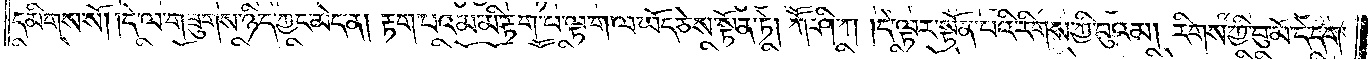དམིགས་སོ། །དེ་ལ་གཟུགས་ཉིད་ཀྱང་མེད་ན། རྟག་པའམ་མི་རྟག་པ་ལྟ་ག་ལ་ཡོད་ཅེས་སྟོན་ཏེ། ཀཽ་ཤི་ཀ། དེ་ལྟར་སྟོན་པའི་རིགས་ཀྱི་བུའམ། རིགས་ཀྱི་བུ་མོ་དེ་དག་
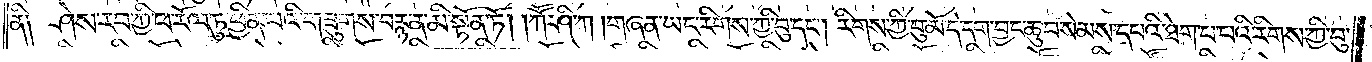ནི༑ ཤེས་རབ་ཀྱི་ཕ་རོལ་ཏུ་ཕྱིན་པའི་གཟུགས་བརྙན་མི་སྟོན་ཏོ། །ཀཽ་ཤི་ཀ། གཞན་ཡང་རིགས་ཀྱི་བུ་དང༌། རིགས་ཀྱི་བུ་མོ་དེ་དག་བྱང་ཆུབ་སེམས་དཔའི་ཐེག་པ་པའི་རིགས་ཀྱི་བུ་
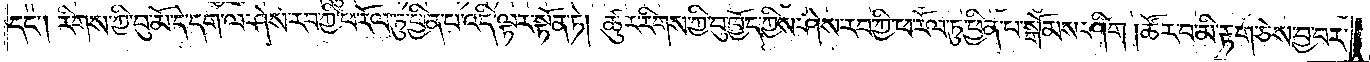དང༌། རིགས་ཀྱི་བུ་མོ་དེ་དག་ལ་ཤེས་རབ་ཀྱི་ཕ་རོལ་ཏུ་ཕྱིན་པ་འདི་ལྟར་སྟོན་ཏེ། ཚུར་རིགས་ཀྱི་བུ་ཁྱོད་ཀྱིས་ཤེས་རབ་ཀྱི་ཕ་རོལ་ཏུ་ཕྱིན་པ་སྒོམས་ཤིག། ཚོར་བ་མི་རྟག་ཅེས་བྱ་བར་
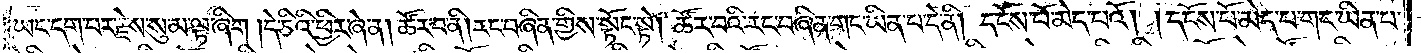ཡང་དག་པར་རྗེས་སུ་མ་ལྟ་ཞིག །དེ་ཅིའི་ཕྱིར་ཞེ་ན། ཚོར་བ་ནི། རང་བཞིན་གྱིས་སྟོང་སྟེ། ཚོར་བའི་རང་བཞིན་གང་ཡིན་པ་དེ་ནི། དངོས་པོ་མེད་པའོ། །དངོས་པོ་མེད་པ་གང་ཡིན་པ་
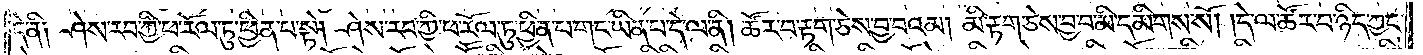དེ་ནི༑ ཤེས་རབ་ཀྱི་ཕ་རོལ་ཏུ་ཕྱིན་པ་སྟེ། ཤེས་རབ་ཀྱི་ཕ་རོལ་ཏུ་ཕྱིན་པ་གང་ཡིན་པ་དེ་ལ་ནི། ཚོར་བ་རྟག་ཅེས་བྱ་བའམ། མི་རྟག་ཅེས་བྱ་བ་མི་དམིགས་སོ། །དེ་ལ་ཚོར་བ་ཉིད་ཀྱང་
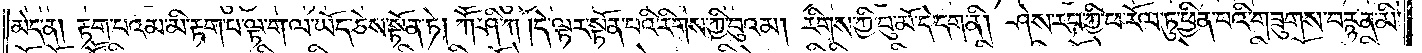མེད་ན། རྟག་པའམ་མི་རྟག་པ་ལྟ་ག་ལ་ཡོད་ཅེས་སྟོན་ཏེ། ཀཽ་ཤི་ཀ །དེ་ལྟར་སྟོན་པའི་རིགས་ཀྱི་བུའམ། རིགས་ཀྱི་བུ་མོ་དེ་དག་ནི། ཤེས་རབ་ཀྱི་ཕ་རོལ་ཏུ་ཕྱིན་པའི་གཟུགས་བརྙན་མི་
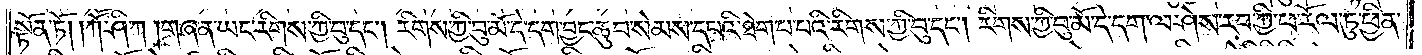སྟོན་ཏོ། །ཀཽ་ཤི་ཀ། གཞན་ཡང་རིགས་ཀྱི་བུ་དང༌། རིགས་ཀྱི་བུ་མོ་དེ་དག་བྱང་ཆུབ་སེམས་དཔའི་ཐེག་པ་པའི་རིགས་ཀྱི་བུ་དང༌། རིགས་ཀྱི་བུ་མོ་དེ་དག་ལ་ཤེས་རབ་ཀྱི་ཕ་རོལ་ཏུ་ཕྱིན་
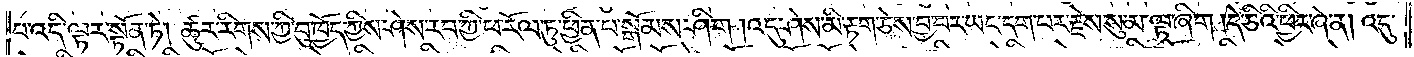པ་འདི་ལྟར་སྟོན་ཏེ། ཚུར་རིགས་ཀྱི་བུ་ཁྱོད་ཀྱིས་ཤེས་རབ་ཀྱི་ཕ་རོལ་ཏུ་ཕྱིན་པ་སྒོམས་ཤིག །འདུ་ཤེས་མི་རྟག་ཅེས་བྱ་བར་ཡང་དག་པར་རྗེས་སུ་མ་ལྟ་ཞིག །དེ་ཅིའི་ཕྱིར་ཞེ་ན། འདུ་
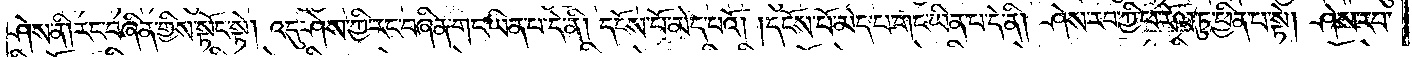ཤེས་ནི། རང་བཞིན་གྱིས་སྟོང་སྟེ། འདུ་ཤེས་ཀྱི་རང་བཞིན་གང་ཡིན་པ་དེ་ནི། དངོས་པོ་མེད་པའོ། །དངོས་པོ་མེད་པ་གང་ཡིན་པ་དེ་ནི། ཤེས་རབ་ཀྱི་ཕ་རོལ་ཏུ་ཕྱིན་པ་སྟེ། ཤེས་རབ་
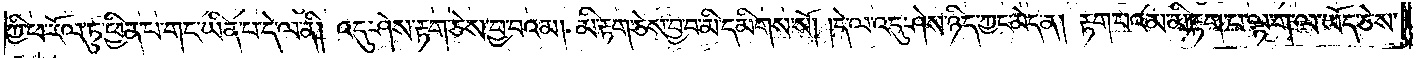ཀྱི་ཕ་རོལ་ཏུ་ཕྱིན་པ་གང་ཡིན་པ་དེ་ལ་ནི། འདུ་ཤེས་རྟག་ཅེས་བྱ་བའམ། མི་རྟག་ཅེས་བྱ་བ་མི་དམིགས་སོ། །དེ་ལ་འདུ་ཤེས་ཉིད་ཀྱང་མེད་ན། རྟག་པའམ་མི་རྟག་པ་ལྟ་ག་ལ་ཡོད་ཅེས་
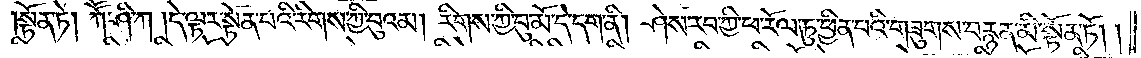སྟོན་ཏེ། ཀཽ་ཤི་ཀ། དེ་ལྟར་སྟོན་པའི་རིགས་ཀྱི་བུའམ། རིགས་ཀྱི་བུ་མོ་དེ་དག་ནི། ཤེས་རབ་ཀྱི་ཕ་རོལ་ཏུ་ཕྱིན་པའི་གཟུགས་བརྙན་མི་སྟོན་ཏོ། །
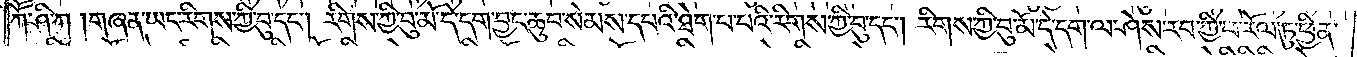ཀཽ་ཤི་ཀ། གཞན་ཡང་རིགས་ཀྱི་བུ་དང༌། རིགས་ཀྱི་བུ་མོ་དེ་དག་བྱང་ཆུབ་སེམས་དཔའི་ཐེག་པ་པའི་རིགས་ཀྱི་བུ་དང༌། རིགས་ཀྱི་བུ་མོ་དེ་དག་ལ་ཤེས་རབ་ཀྱི་ཕ་རོལ་ཏུ་ཕྱིན་
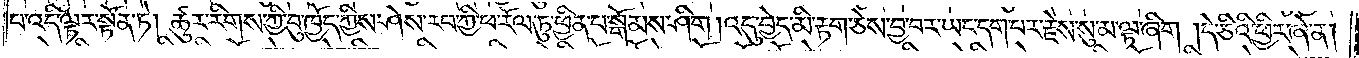པ་འདི་ལྟར་སྟོན་ཏེ། ཚུར་རིགས་ཀྱི་བུ་ཁྱོད་ཀྱིས་ཤེས་རབ་ཀྱི་ཕ་རོལ་ཏུ་ཕྱིན་པ་སྒོམས་ཤིག །འདུ་བྱེད་མི་རྟག་ཅེས་བྱ་བར་ཡང་དག་པར་རྗེས་སུ་མ་ལྟ་ཞིག །དེ་ཅིའི་ཕྱིར་ཞེ་ན།
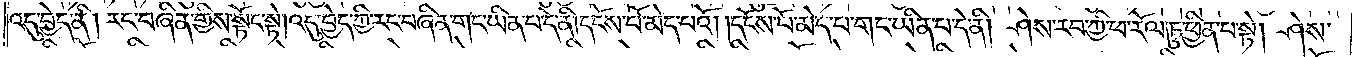འདུ་བྱེད་ནི། རང་བཞིན་གྱིས་སྟོང་སྟེ། འདུ་བྱེད་ཀྱི་རང་བཞིན་གང་ཡིན་པ་དེ་ནི། དངོས་པོ་མེད་པའོ། །དངོས་པོ་མེད་པ་གང་ཡིན་པ་དེ་ནི། ཤེས་རབ་ཀྱི་ཕ་རོལ་ཏུ་ཕྱིན་པ་སྟེ། ཤེས་
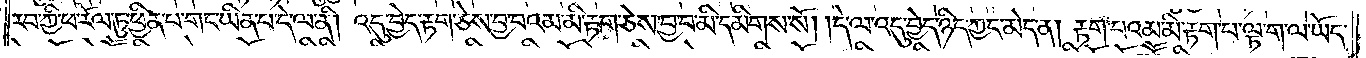རབ་ཀྱི་ཕ་རོལ་ཏུ་ཕྱིན་པ་གང་ཡིན་པ་དེ་ལ་ནི། འདུ་བྱེད་རྟག་ཅེས་བྱ་བའམ་མི་རྟག་ཅེས་བྱ་བ་མི་དམིགས་སོ། །དེ་ལ་འདུ་བྱེད་ཉིད་ཀྱང་མེད་ན། རྟག་པའམ་མི་རྟག་པ་ལྟ་ག་ལ་ཡོད་
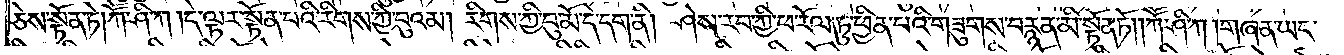ཅེས་སྟོན་ཏེ། ཀཽ་ཤི་ཀ། དེ་ལྟར་སྟོན་པའི་རིགས་ཀྱི་བུའམ། རིགས་ཀྱི་བུ་མོ་དེ་དག་ནི། ཤེས་རབ་ཀྱི་ཕ་རོལ་ཏུ་ཕྱིན་པའི་གཟུགས་བརྙན་མི་སྟོན་ཏོ། །ཀཽ་ཤི་ཀ། གཞན་ཡང་
